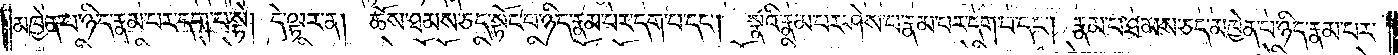མཁྱེན་པ་ཉིད་རྣམ་པར་དག་པ་སྟེ། དེ་ལྟར་ན། ཆོས་ཐམས་ཅད་སྟོང་པ་ཉིད་རྣམ་པར་དག་པ་དང༌། སྣའི་རྣམ་པར་ཤེས་པ་རྣམ་པར་དག་པ་དང༌། རྣམ་པ་ཐམས་ཅད་མཁྱེན་པ་ཉིད་རྣམ་པར་
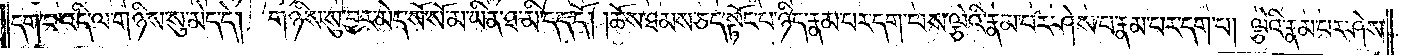དག་པ་འདི་ལ་གཉིས་སུ་མེད་དེ། གཉིས་སུ་བྱར་མེད་སོ་སོ་མ་ཡིན་ཐ་མི་དད་དོ། །ཆོས་ཐམས་ཅད་སྟོང་པ་ཉིད་རྣམ་པར་དག་པས་ལྕེའི་རྣམ་པར་ཤེས་པ་རྣམ་པར་དག་པ། ལྕེའི་རྣམ་པར་ཤེས་
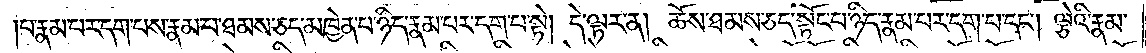པ་རྣམ་པར་དག་པས་རྣམ་པ་ཐམས་ཅད་མཁྱེན་པ་ཉིད་རྣམ་པར་དག་པ་སྟེ། དེ་ལྟར་ན། ཆོས་ཐམས་ཅད་སྟོང་པ་ཉིད་རྣམ་པར་དག་པ་དང༌། ལྕེའི་རྣམ་
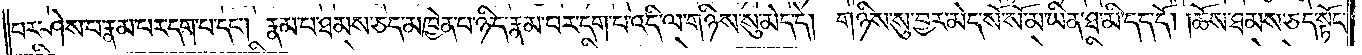པར་ཤེས་པ་རྣམ་པར་དག་པ་དང༌། རྣམ་པ་ཐམས་ཅད་མཁྱེན་པ་ཉིད་རྣམ་པར་དག་པ་འདི་ལ་གཉིས་སུ་མེད་དེ། གཉིས་སུ་བྱར་མེད་སོ་སོ་མ་ཡིན་ཐ་མི་དད་དོ། །ཆོས་ཐམས་ཅད་སྟོང་
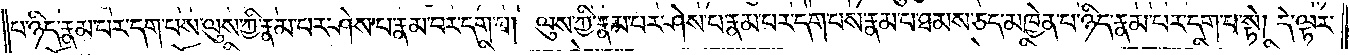པ་ཉིད་རྣམ་པར་དག་པས་ལུས་ཀྱི་རྣམ་པར་ཤེས་པ་རྣམ་པར་དག་པ། ལུས་ཀྱི་རྣམ་པར་ཤེས་པ་རྣམ་པར་དག་པས་རྣམ་པ་ཐམས་ཅད་མཁྱེན་པ་ཉིད་རྣམ་པར་དག་པ་སྟེ། དེ་ལྟར་
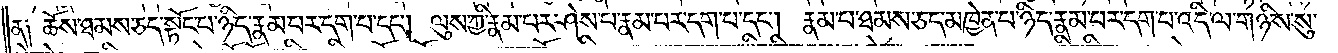ན༑ ཆོས་ཐམས་ཅད་སྟོང་པ་ཉིད་རྣམ་པར་དག་པ་དང༌། ལུས་ཀྱི་རྣམ་པར་ཤེས་པ་རྣམ་པར་དག་པ་དང༌། རྣམ་པ་ཐམས་ཅད་མཁྱེན་པ་ཉིད་རྣམ་པར་དག་པ་འདི་ལ་གཉིས་སུ་
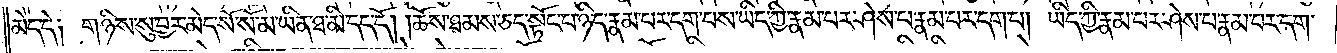མེད་དེ༑ གཉིས་སུ་བྱར་མེད་སོ་སོ་མ་ཡིན་ཐ་མི་དད་དོ། །ཆོས་ཐམས་ཅད་སྟོང་པ་ཉིད་རྣམ་པར་དག་པས་ཡིད་ཀྱི་རྣམ་པར་ཤེས་པ་རྣམ་པར་དག་པ། ཡིད་ཀྱི་རྣམ་པར་ཤེས་པ་རྣམ་པར་དག་
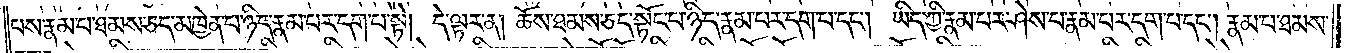པས་རྣམ་པ་ཐམས་ཅད་མཁྱེན་པ་ཉིད་རྣམ་པར་དག་པ་སྟེ། དེ་ལྟར་ན། ཆོས་ཐམས་ཅད་སྟོང་པ་ཉིད་རྣམ་པར་དག་པ་དང༌། ཡིད་ཀྱི་རྣམ་པར་ཤེས་པ་རྣམ་པར་དག་པ་དང༌། རྣམ་པ་ཐམས་
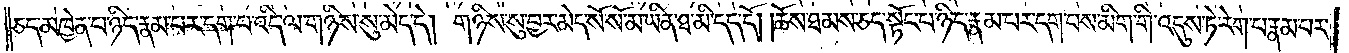ཅད་མཁྱེན་པ་ཉིད་རྣམ་པར་དག་པ་འདི་ལ་གཉིས་སུ་མེད་དེ། གཉིས་སུ་བྱར་མེད་སོ་སོ་མ་ཡིན་ཐ་མི་དད་དོ། །ཆོས་ཐམས་ཅད་སྟོང་པ་ཉིད་རྣམ་པར་དག་པས་མིག་གི་འདུས་ཏེ་རེག་པ་རྣམ་པར་
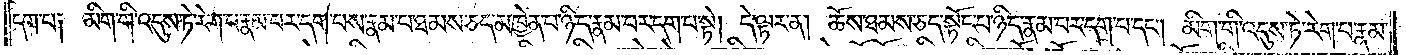དག་པ། མིག་གི་འདུས་ཏེ་རེག་པ་རྣམ་པར་དག་པས་རྣམ་པ་ཐམས་ཅད་མཁྱེན་པ་ཉིད་རྣམ་པར་དག་པ་སྟེ། དེ་ལྟར་ན། ཆོས་ཐམས་ཅད་སྟོང་པ་ཉིད་རྣམ་པར་དག་པ་དང༌། མིག་གི་འདུས་ཏེ་རེག་པ་རྣམ་
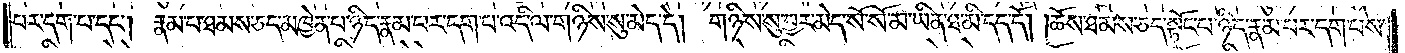པར་དག་པ་དང༌། རྣམ་པ་ཐམས་ཅད་མཁྱེན་པ་ཉིད་རྣམ་པར་དག་པ་འདི་ལ་གཉིས་སུ་མེད་དེ། གཉིས་སུ་བྱར་མེད་སོ་སོ་མ་ཡིན་ཐ་མི་དད་དོ། །ཆོས་ཐམས་ཅད་སྟོང་པ་ཉིད་རྣམ་པར་དག་པས་
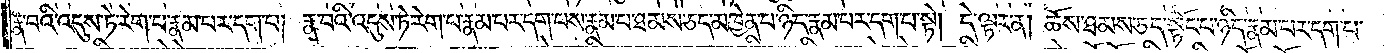རྣ་བའི་འདུས་ཏེ་རེག་པ་རྣམ་པར་དག་པ། རྣ་བའི་འདུས་ཏེ་རེག་པ་རྣམ་པར་དག་པས་རྣམ་པ་ཐམས་ཅད་མཁྱེན་པ་ཉིད་རྣམ་པར་དག་པ་སྟེ། དེ་ལྟར་ན། ཆོས་ཐམས་ཅད་སྟོང་པ་ཉིད་རྣམ་པར་དག་པ་
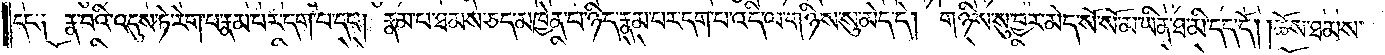དང་༑ རྣ་བའི་འདུས་ཏེ་རེག་པ་རྣམ་པར་དག་པ་དང༌། རྣམ་པ་ཐམས་ཅད་མཁྱེན་པ་ཉིད་རྣམ་པར་དག་པ་འདི་ལ་གཉིས་སུ་མེད་དེ། གཉིས་སུ་བྱར་མེད་སོ་སོ་མ་ཡིན་ཐ་མི་དད་དོ། །ཆོས་ཐམས་
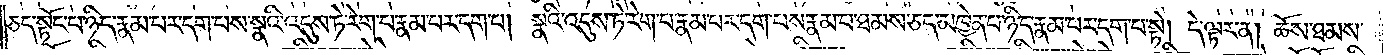ཅད་སྟོང་པ་ཉིད་རྣམ་པར་དག་པས་སྣའི་འདུས་ཏེ་རེག་པ་རྣམ་པར་དག་པ། སྣའི་འདུས་ཏེ་རེག་པ་རྣམ་པར་དག་པས་རྣམ་པ་ཐམས་ཅད་མཁྱེན་པ་ཉིད་རྣམ་པར་དག་པ་སྟེ། དེ་ལྟར་ན། ཆོས་ཐམས་
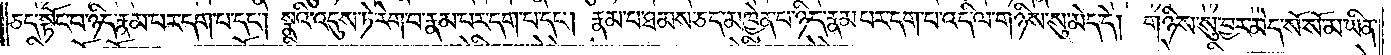ཅད་སྟོང་པ་ཉིད་རྣམ་པར་དག་པ་དང༌། སྣའི་འདུས་ཏེ་རེག་པ་རྣམ་པར་དག་པ་དང༌། རྣམ་པ་ཐམས་ཅད་མཁྱེན་པ་ཉིད་རྣམ་པར་དག་པ་འདི་ལ་གཉིས་སུ་མེད་དེ། གཉིས་སུ་བྱར་མེད་སོ་སོ་མ་ཡིན་
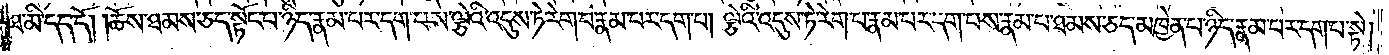ཐ་མི་དད་དོ། །ཆོས་ཐམས་ཅད་སྟོང་པ་ཉིད་རྣམ་པར་དག་པས་ལྕེའི་འདུས་ཏེ་རེག་པ་རྣམ་པར་དག་པ། ལྕེའི་འདུས་ཏེ་རེག་པ་རྣམ་པར་དག་པས་རྣམ་པ་ཐམས་ཅད་མཁྱེན་པ་ཉིད་རྣམ་པར་དག་པ་སྟེ།
